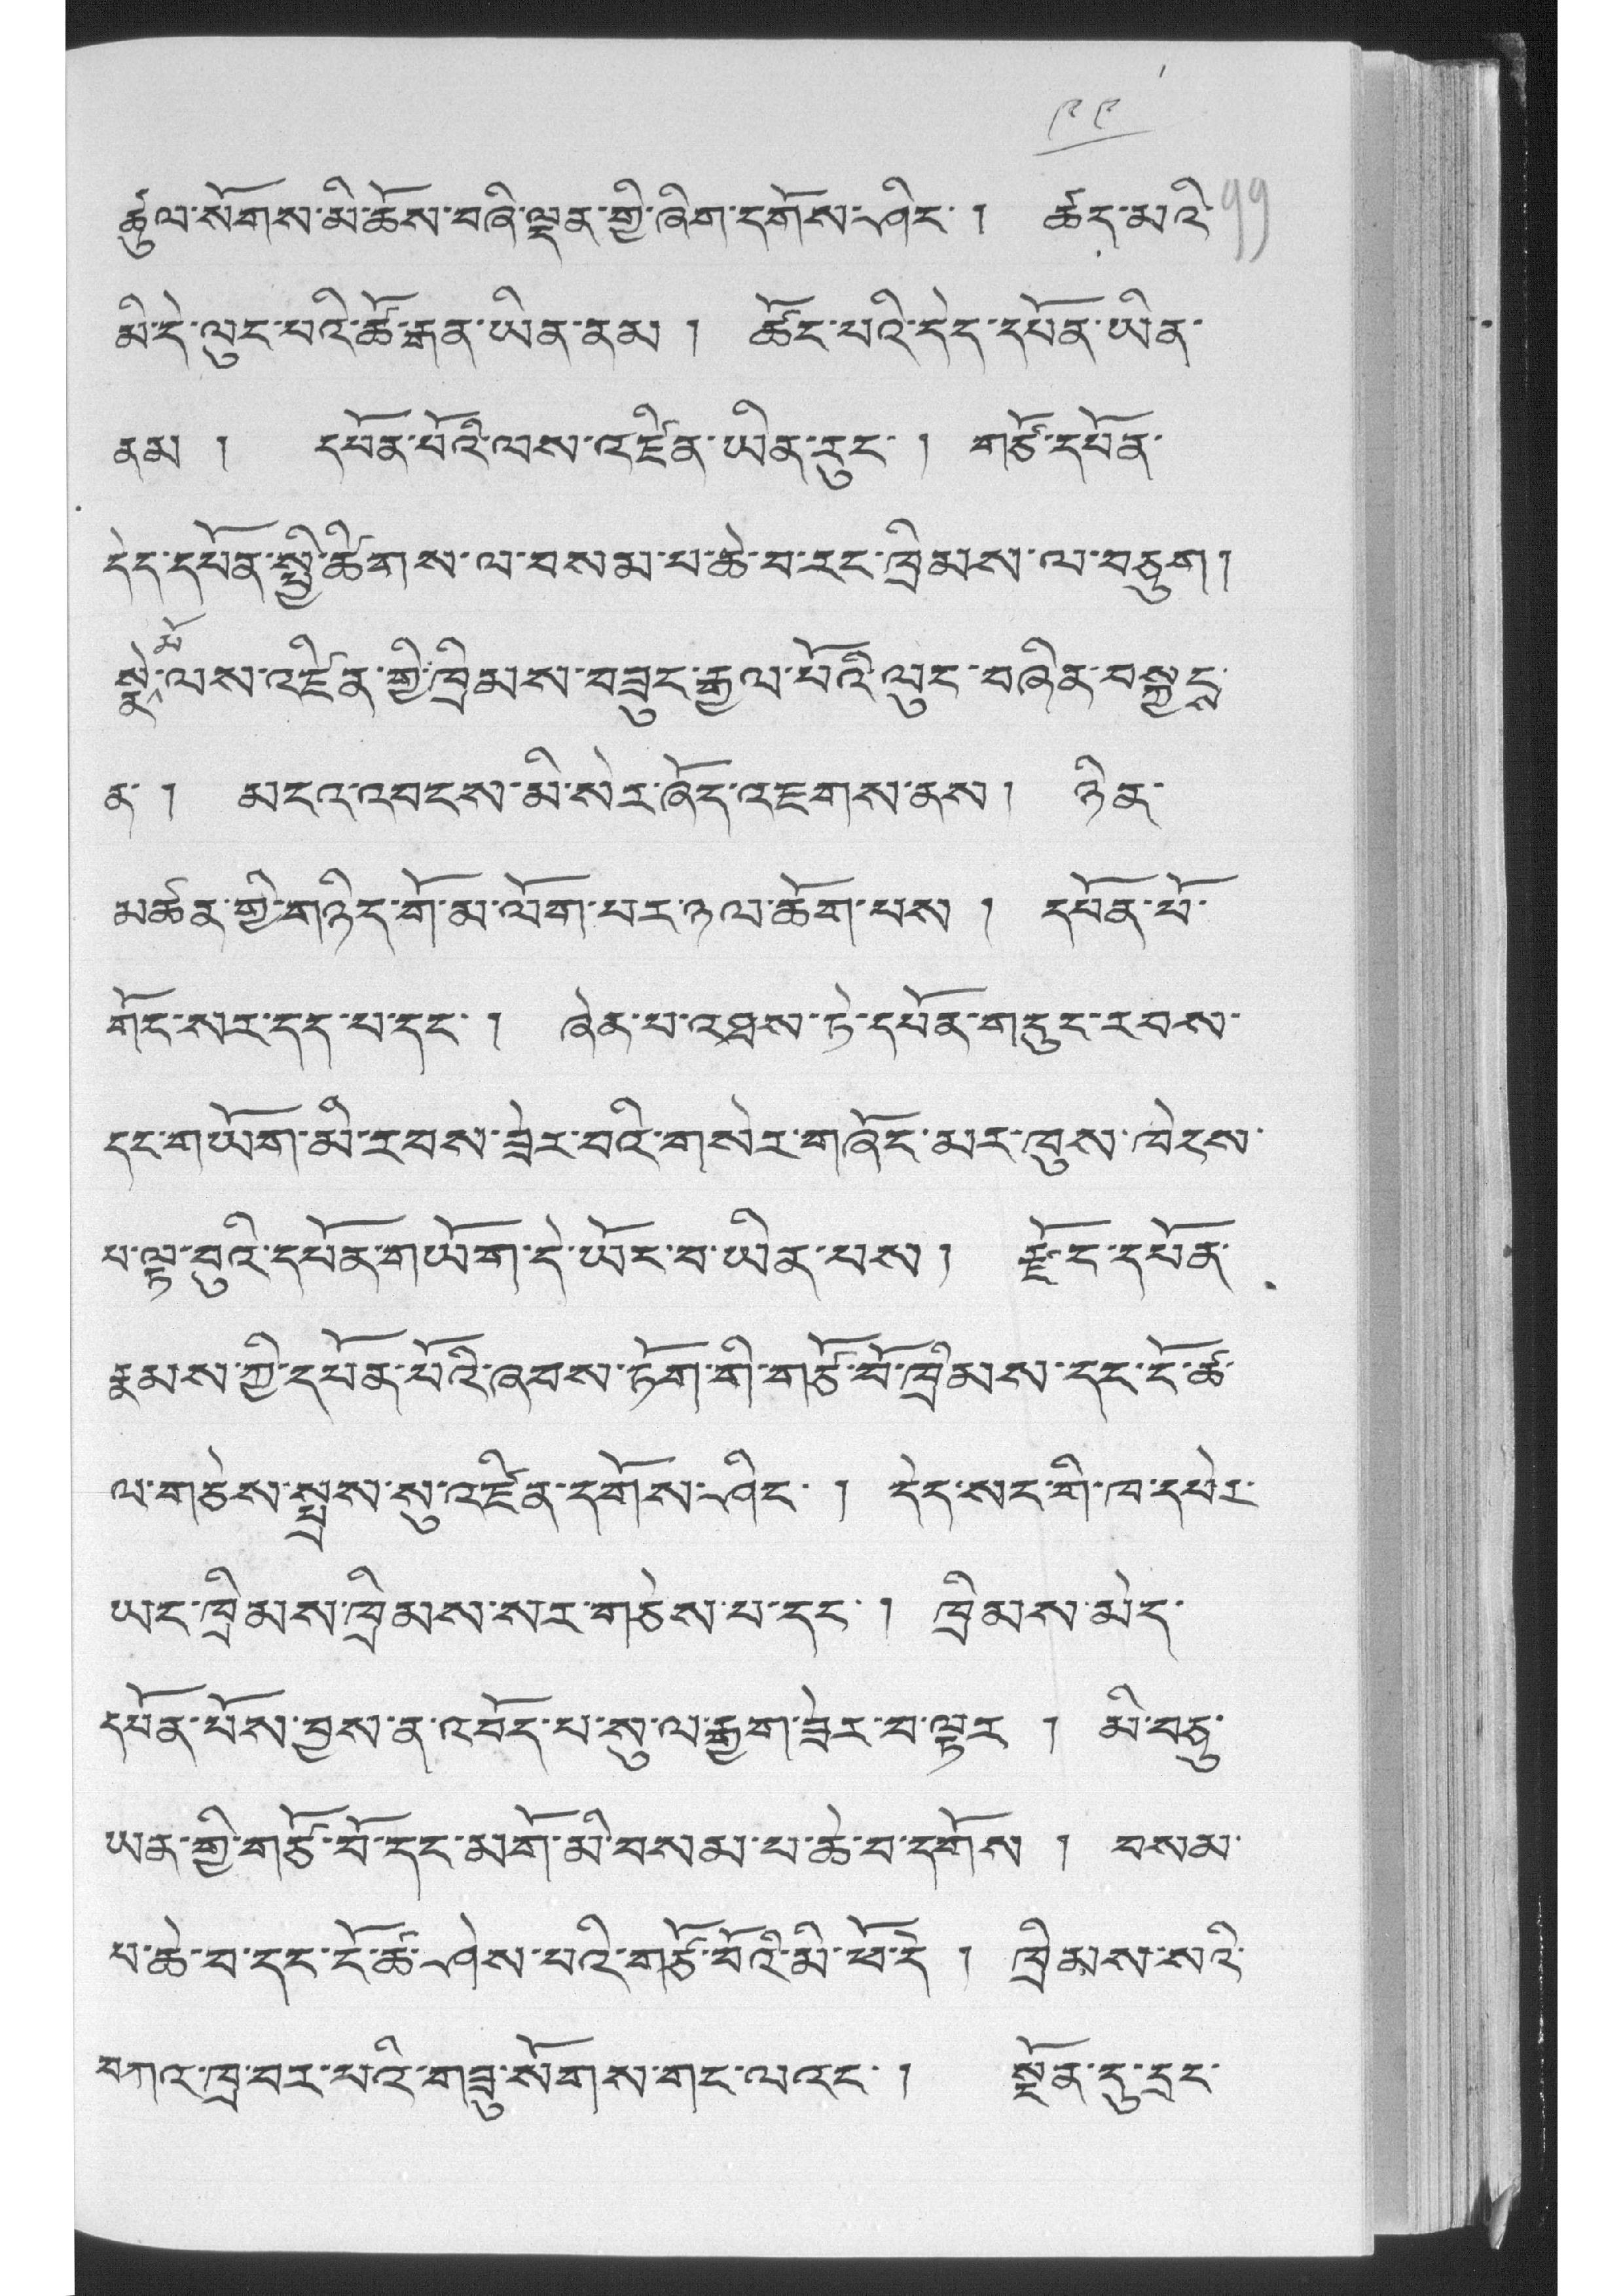༩༩
ཚུལ་སོགས་མི་ཆོས་བཞི་ལྡན་གྱི་ཞིག་དགོས་ཤིང་། ཚད་མའི་
མི་རེ་ལུང་པའི་ཚོ་རྒན་ཡིན་ནམ ། ཚོང་པའི་དེད་དཔོན་ཡིན་
ནམ ། དཔོན་པོའི་ལས་འཛིན་ཡིན་རུང་ ། གཙོ་དཔོན་
དེད་དཔོན་སྤྱི་ཚིགས་ལ་བསམ་པ་ཆེ་བ་རང་ཁྲིམས་ལ་བཅུག །
སྣེ་མོ་ལས་འཛིན་གྱི་ཁྲིམས་བཟུང་རྒྱལ་པོའི་ལུང་བཞིན་བསྐྱངས་
ན་ ། མངའ་འབངས་མི་སེར་ཞོད་འཇགས་ནས། ཉིན་
མཚན་གྱི་གཉིད་གོ་མ་ལོག་པར་ཉལ་ཆོག་པས ། དཔོན་པོ་
གོང་སར་དད་པ་དང་ ། ཞེན་པ་འཐས་ཏེ་དཔོན་གསུང་རབས་
དང་གཡོག་མི་རབས་ཟེར་བའི་གསེར་གཞོང་མར་ཁུས་ཁེངས་
པ་ལྟ་བུའི་དཔོན་གཡོག་དེ་ཡོང་བ་ཡིན་པས། རྫོང་དཔོན་
རྣམས་ཀྱི་དཔོན་པོའི་ཞབས་ཏོག་གི་གཙོ་བོ་ཁྲིམས་དང་ངོ་ཚ་
ལ་གཅེས་སྤྲས་སུ་འཛིན་དགོས་ཤིང་ ། དེད་སང་གི་ཁ་དཔེར་
ཡང་ཁྲིམས་ཁྲིམས་སར་གཅེས་པ་དང་། ཁྲིམས་མེད་
དཔོན་པོས་བྱས་ན་འབོད་པ་སུ་ལ་རྒྱག་ཟེར་བ་ལྟར ། མི་བཅུ་
ཡན་གྱི་གཙོ་བོ་རང་མགོ་མི་བསམ་པ་ཆེ་བ་དགོས ། བསམ་
པ་ཆེ་བ་དང་ངོ་ཚ་ཤེས་པའི་གཙོ་བོའི་མི་ཕོ་དེ ། ཁྲིམས་སའི་
བཀའ་ཁྲ་བར་པའི་གཟུ་སོགས་གང་ལ་དང་། སྔོན་དུ་དྲང་
